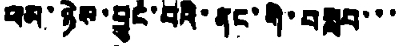ཕམ་ཉེས་བྱུང་བའི་ནང་གི་བསླབ་་་
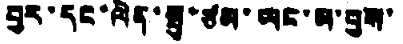བྱར་དང་ལེན་སྤུ་ཙམ་ཡང་མ་བྱས་
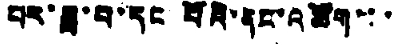པར་ཟླ་བ་དང་པོའི་ནང་འཆོག་་་
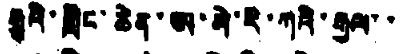རྒྱུའི་གླིང་ཆེན་ཨ་མེ་རི་ཀའི་རྒྱལ་་
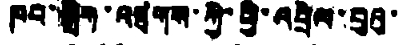ཁབ་སྒྲིག་འཛུགས་ཀྱི་ཕྱི་འབྲེལ་པུའུ་
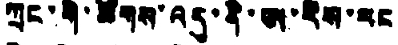ཀྲང་གི་ཚོགས་འདུ་ནི་ཨ་རིས་རང
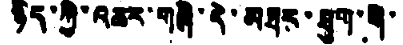ཉིད་ཀྱི་འཆར་གཞི་དེ་མཐར་ཐུག་གི་
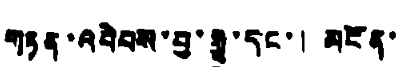གཏན་འབེབས་བྱ་རྒྱུ་དང་། མངོན་
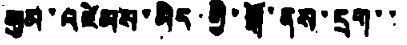སུམ་འཛེམས་མེད་གྱི་སྒོ་ནས་དྲག་་
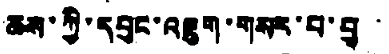ཆས་ཀྱི་དབུང་འཇུག་གདར་པ་བྱ་
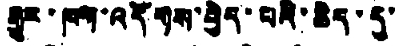རྒྱུར་ཁག་འདོགས་བྱེད་པའི་ཆེད་དུ་
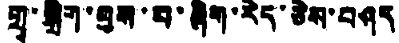གྲྭ་སྒྲིག་བྱས་པ་ཞིག་རེད་ཅེས་བཤད
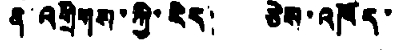ན་འགྲིགས་ཀྱི་རེད། ཅེས་འཁོད་
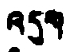འདུག
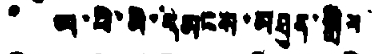ཡ་ཕི་མི་དམངས་མཐུན་སྒྲིལ་
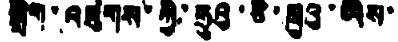སྒྲིག་འཛུགས་ཀྱི་ཧྲུའུ་ཅི་ཁྲུའུ་ཡིས་
